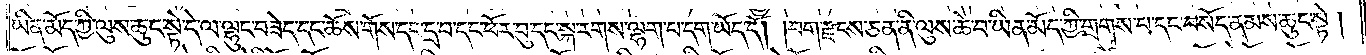ཡིན་མོད་ཀྱི་ལུས་ཆུང་སྟེ་དེ་ལ་ལྷུང་བཟེད་དང་ཆོས་གོས་དང་འདྲ་བ་དང་ཕོར་བུ་དང་སྐ་རགས་ལྷག་པ་དག་ཡོད་དོ། །བག་རྫངས་ཅན་ནི་ལུས་ཆེ་བ་ཡིན་མོད་ཀྱི་གྲགས་པ་དང་བསོད་ནམས་ཆུང་སྟེ།
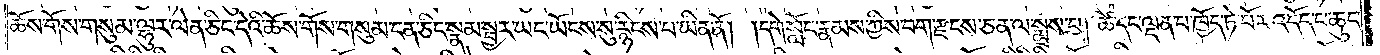ཆོས་གོས་གསུམ་ལྷུར་ལེན་ཅིང་དེའི་ཆོས་གོས་གསུམ་ངན་ཅིང་སྣམ་སྦྱར་ཡང་ཡོངས་སུ་རྙིངས་པ་ཡིན་ནོ། །དགེ་སློང་རྣམས་ཀྱིས་བག་རྫངས་ཅན་ལ་སྨྲས་པ། ཚེ་དང་ལྡན་པ་ཁྱོད་ཏེ་བོར་འདོད་པ་ཆུང་
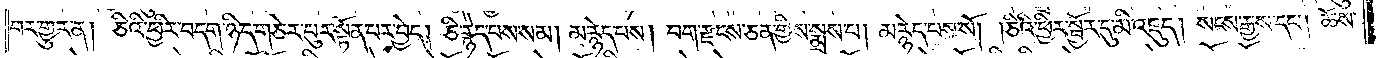བར་གྱུར་ན། ཅིའི་ཕྱིར་བདག་ཉིད་གཅེར་བུར་སྟོན་པར་བྱེད། ཅི་རྙེད་པས་སམ། མ་རྙེད་པས། བག་རྫངས་ཅན་གྱིས་སྨྲས་པ། མ་རྙེད་པས་སོ། །ཅིའི་ཕྱིར་སྦྱོར་དུ་མི་འཇུད། སངས་རྒྱས་དང༌། ཚེས་
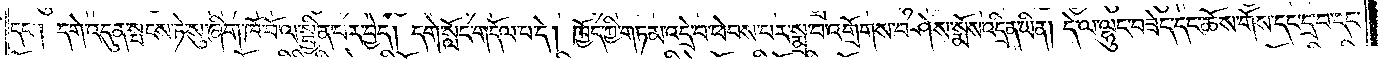དང༌། དགེ་འདུན་སྤངས་ཏེ་སུ་ཞིག་ཁོ་བོ་ལ་སྦྱིན་པར་བྱེད། དགེ་སློང་གདོལ་པ་དེ། ཁྱོད་ཀྱི་གཏམ་འདྲེ་བ་ཕེབས་པར་སྨྲ་བ་འགྲོགས་བཤེས་སྨོས་འདྲིན་ཡིན། དེ་ལ་ལྷུང་བཟེད་དང་ཆོས་གོས་དང་དྲ་བ་དང་
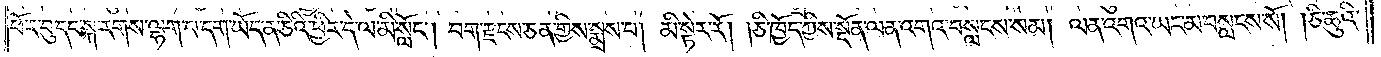ཕོར་བུ་དང་སྐ་རགས་ལྷག་པ་དག་ཡོད་ན་ཅིའི་ཕྱིར་དེ་ལ་མི་སློང༌། བག་རྫངས་ཅན་གྱིས་སྨྲས་པ། མི་སྟེར་རོ། །ཅི་ཁྱོད་ཀྱིས་སྔོན་ལན་འགའ་བསླངས་སམ། ལན་འགའ་ཡང་མ་བསླངས་སོ། །ཅི་ཆུའི་
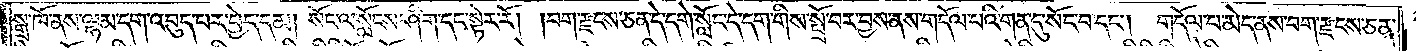སྒྲ་ཁོ་ནས་ལྷམ་དག་འབུད་པར་བྱེད་དམ། སོང་ལ་སློང་ཤིག་དང་སྟེར་རོ། །བག་རྫངས་ཅན་དེ་དགེ་སློང་དེ་དག་གིས་སྤྲོ་བར་བྱས་ནས་གདོལ་པའི་གན་དུ་སོང་བ་དང༌། གདོལ་པ་མེད་ནས་བག་རྫངས་ཅན་
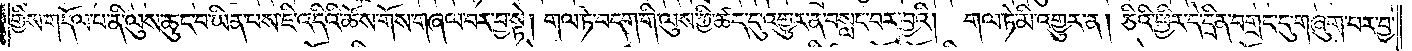གྱིས་གདོལ་པ་ནི་ལུས་ཆུང་བ་ཡིན་པས་ཇི་འདིའི་ཆོས་གོས་གཞལ་བར་བྱ་སྟེ། གལ་ཏེ་བདག་གི་ལུས་ཀྱི་ཚད་དུ་འགྱུར་ན་བསླང་བར་བྱའི། གལ་ཏེ་མི་འགྱུར་ན། ཅིའི་ཕྱིར་དེ་དྲིན་བགྲང་དུ་གཞུག་པར་བྱ་
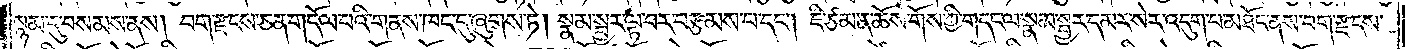སྙམ་དུ་བསམས་ནས། བག་རྫངས་ཅན་གདོལ་པའི་གནས་ཁང་དུ་ཞུགས་ཏེ། སྣམ་སྦྱར་ལྟ་བར་བརྩམས་པ་དང༌། ཇི་ཙམ་ན་ཆོས་གོས་ཀྱི་གདང་ལ་སྣམ་སྦྱར་དམར་སེར་འདུག་པ་མཐོང་ནས་བག་རྫངས་
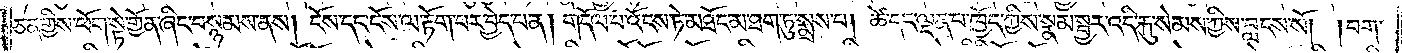ཅན་གྱིས་ཕོག་སྟེ་གྱོན་ཞིང་བསྙམས་ནས། ངོས་དང་ངོས་ལ་རྟོག་པར་བྱེད་པ་ན། གདོལ་པ་འོངས་ཏེ་མཐོང་མ་ཐག་ཏུ་སྨྲས་པ། ཚེ་དང་ལྡན་པ་ཁྱོད་ཀྱིས་སྣམ་སྦྱར་འདི་རྐུ་སེམས་ཀྱིས་བླངས་སོ། །བག་
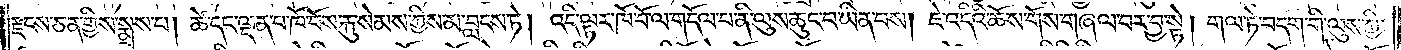རྫངས་ཅན་གྱིས་སྨྲས་པ། ཚེ་དང་ལྡན་པ་ཁོ་བོས་རྐུ་སེམས་ཀྱིས་མ་བླངས་ཏེ། འདི་ལྟར་ཁོ་བོ་ལ་གདོལ་པ་ནི་ལུས་ཆུང་བ་ཡིན་པས། ཇེ་འདིའི་ཆོས་གོས་གཞལ་པར་བྱ་སྟེ། གལ་ཏེ་བདག་གི་ལུས་ཀྱི་
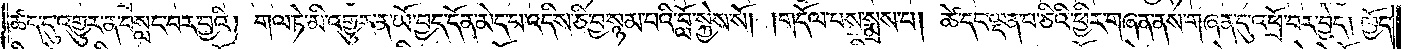ཚད་དུ་འགྱུར་ན་བསླང་བར་བྱའི། གལ་ཏེ་མི་འགྱུར་ན་ཡོ་བྱད་དོན་མེད་པ་འདིས་ཅི་བྱ་སྙམ་པའི་བློ་སྐྱེས་སོ། །གདོལ་པས་སྨྲས་པ། ཚེ་དང་ལྡན་པ་ཅིའི་ཕྱིར་གཞན་ནས་གཞན་དུ་འཕྲོ་བར་བྱེད། ཁྱོད་
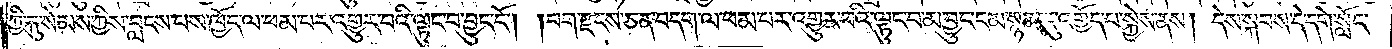ཀྱི་རྐུ་སེམས་ཀྱིས་བླངས་པས་ཁྱོད་ལ་ཕམ་པར་འགྱུར་བའི་ལྟུང་བ་བྱུང་ངོ༌། །བག་རྫངས་ཅན་བདག་ལ་ཕམ་པར་འགྱུར་བའི་ལྟུང་བ་མ་བྱུང་ངམ་སྙམ་དུ་འགྱོད་པ་སྐྱེས་ནས། དེས་སྐབས་དེ་དགེ་སློང་
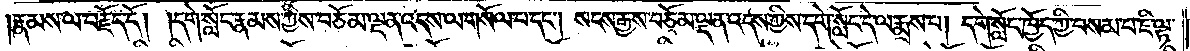།རྣམས་ལ་བརྗོད་དོ། །དགེ་སློང་རྣམས་ཀྱིས་བཅོམ་ལྡན་འདས་ལ་གསོལ་པ་དང༌། སངས་རྒྱས་བཅོམ་ལྡན་འདས་ཀྱིས་དགེ་སློང་དེ་ལ་རྨས་པ། དགེ་སློང་ཁྱོད་ཀྱི་བསམ་པ་ཇི་ལྟ་
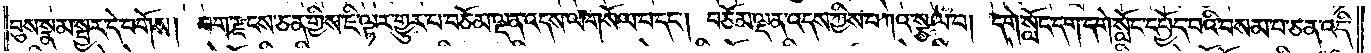བུས་སྣམ་སྦྱར་དེ་བགོས། བག་རྫངས་ཅན་གྱིས་ཇི་ལྟར་གྱུར་པ་བཅོམ་ལྡན་འདས་ལ་གསོལ་པ་དང༌། བཅོམ་ལྡན་འདས་ཀྱིས་བཀའ་སྩལ་པ། དགེ་སློང་དག་དགེ་སློང་དཔྱོད་པའི་བསམ་པ་ཅན་འདི་
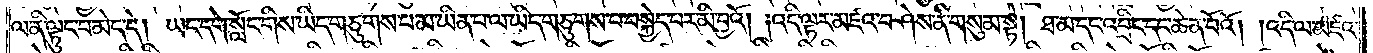ལ་ནི་ལྟུང་བ་མེད་དེ། ཡང་དགེ་སློང་གིས་ཡིད་གཅུགས་པ་མ་ཡིན་པ་ལ་ཡིད་གཅུགས་པ་བསྐྱེད་པར་མི་བྱའོ། །འདི་ལྟར་མཛའ་བཤེས་ནི་གསུམ་སྟེ། ཐ་མ་དང་འབྲིང་དང་ཆེན་པོའོ། །འདི་ལ་མཛའ་
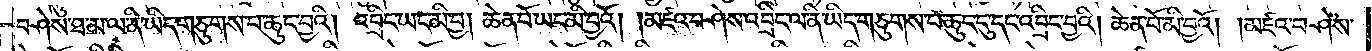བཤེས་ཐ་མ་ལ་ནི་ཡིད་གཅུགས་པ་ཆུང་བྱའི། འབྲིང་ཡང་མི་བྱ། །ཆེན་པོ་ཡང་མི་བྱའོ། །མཛའ་བཤེས་འབྲིང་ལ་ནི་ཡིད་གཅུགས་པ་ཆུང་ངུ་དང་འབྲིང་བྱའི། ཆེན་པོ་མི་བྱའོ། །མཛའ་བཤེས་
